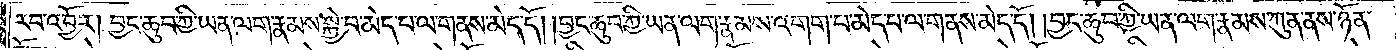རབ་འབྱོར་བྱང་ཆུབ་ཀྱི་ཡན་ལག་རྣམས་སྐྱེ་བ་མེད་པ་ལ་གནས་མེད་དོ། །བྱང་ཆུབ་ཀྱི་ཡན་ལག་རྣམས་འགག་པ་མེད་པ་ལ་གནས་མེད་དོ། །བྱང་ཆུབ་ཀྱི་ཡན་ལག་རྣམས་ཀུན་ནས་ཉོན་
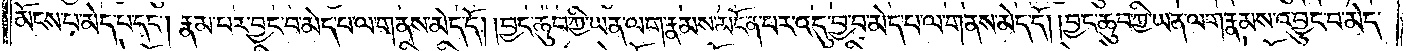མོངས་པ་མེད་པ་དང༌། རྣམ་པར་བྱང་བ་མེད་པ་ལ་གནས་མེད་དོ། །བྱང་ཆུབ་ཀྱི་ཡན་ལག་རྣམས་མངོན་པར་འདུ་བྱ་བ་མེད་པ་ལ་གནས་མེད་དོ། །བྱང་ཆུབ་ཀྱི་ཡན་ལག་རྣམས་འབྱུང་བ་མེད་
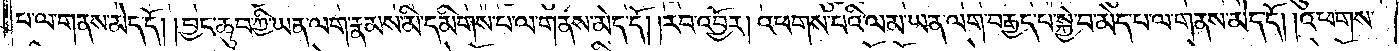པ་ལ་གནས་མེད་དོ། །བྱང་ཆུབ་ཀྱི་ཡན་ལག་རྣམས་མི་དམིགས་པ་ལ་གནས་མེད་དོ། །རབ་འབྱོར། འཕགས་པའི་ལམ་ཡན་ལག་བརྒྱད་པ་སྐྱེ་བ་མེད་པ་ལ་གནས་མེད་དོ། །འཕགས་
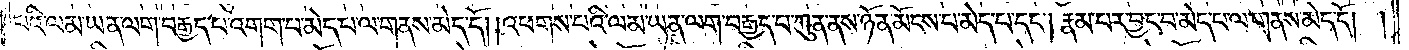པའི་ལམ་ཡན་ལག་བརྒྱད་པ་འགག་པ་མེད་པ་ལ་གནས་མེད་དོ། །འཕགས་པའི་ལམ་ཡན་ལག་བརྒྱད་པ་ཀུན་ནས་ཉོན་མོངས་པ་མེད་པ་དང༌། རྣམ་པར་བྱང་བ་མེད་པ་ལ་གནས་མེད་དོ། །
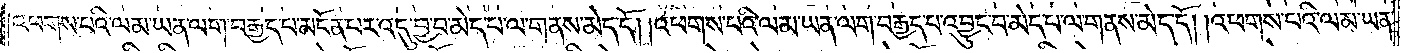འཕགས་པའི་ལམ་ཡན་ལག་བརྒྱད་པ་མངོན་པར་འདུ་བྱ་བ་མེད་པ་ལ་གནས་མེད་དོ། །འཕགས་པའི་ལམ་ཡན་ལག་བརྒྱད་པ་འབྱུང་བ་མེད་པ་ལ་གནས་མེད་དོ། །འཕགས་པའི་ལམ་ཡན་
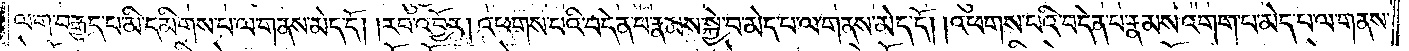ལག་བརྒྱད་པ་མི་དམིགས་པ་ལ་གནས་མེད་དོ། །རབ་འབྱོར། འཕགས་པའི་བདེན་པ་རྣམས་སྐྱེ་བ་མེད་པ་ལ་གནས་མེད་དོ། །འཕགས་པའི་བདེན་པ་རྣམས་འགག་བ་མེད་པ་ལ་གནས་
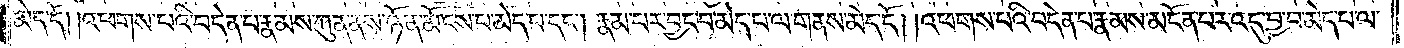མེད་དོ། །འཕགས་པའི་བདེན་པ་རྣམས་ཀུན་ནས་ཉོན་མོངས་པ་མེད་པ་དང༌། རྣམ་པར་བྱང་པ་མེད་པ་ལ་གནས་མེད་དོ། །འཕགས་པའི་བདེན་པ་རྣམས་མངོན་པར་འདུ་བྱ་བ་མེད་པ་ལ་
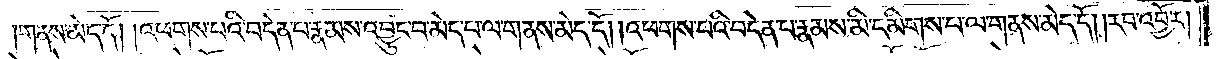གནས་མེད་དོ། །འཕགས་པའི་བདེན་པ་རྣམས་འབྱུང་བ་མེད་པ་ལ་གནས་མེད་དོ། །འཕགས་པའི་བདེན་པ་རྣམས་མི་དམིགས་པ་ལ་གནས་མེད་དོ། །རབ་འབྱོར།
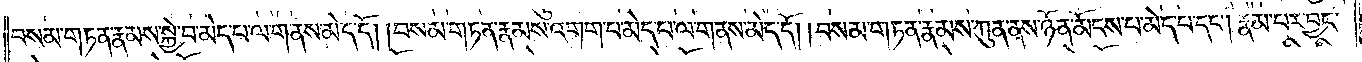བསམ་གཏན་རྣམས་སྐྱེ་བ་མེད་པ་ལ་གནས་མེད་དོ། །བསམ་གཏན་རྣམས་འགག་པ་མེད་པ་ལ་གནས་མེད་དོ། །བསམ་གཏན་རྣམས་ཀུན་ནས་ཉོན་མོངས་པ་མེད་པ་དང༌། རྣམ་པར་བྱང་
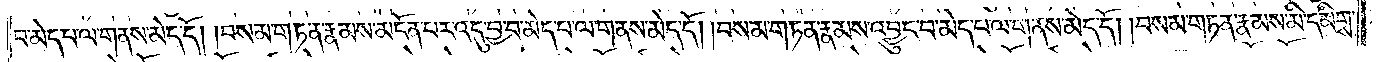བ་མེད་པ་ལ་གནས་མེད་དོ། །བསམ་གཏན་རྣམས་མངོན་པར་འདུ་བྱ་བ་མེད་པ་ལ་གནས་མེད་དོ། །བསམ་གཏན་རྣམས་འབྱུང་བ་མེད་པ་ལ་གནས་མེད་དོ། །བསམ་གཏན་རྣམས་མི་དམིགས་
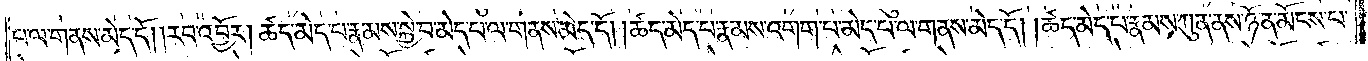པ་ལ་གནས་མེད་དོ། །རབ་འབྱོར། ཚད་མེད་པ་རྣམས་སྐྱེ་བ་མེད་པ་ལ་གནས་མེད་དོ། །ཚད་མེད་པ་རྣམས་འགག་པ་མེད་པ་ལ་གནས་མེད་དོ། །ཚད་མེད་པ་རྣམས་ཀུན་ནས་ཉོན་མོངས་པ་
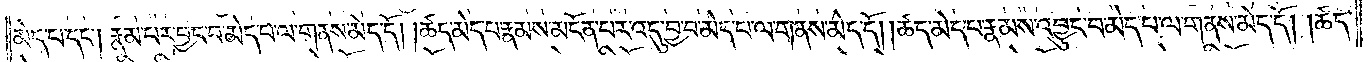མེད་པ་དང༌། རྣམ་པར་བྱང་བ་མེད་པ་ལ་གནས་མེད་དོ། །ཚད་མེད་པ་རྣམས་མངོན་པར་འདུ་བྱ་བ་མེད་པ་ལ་གནས་མེད་དོ། །ཚད་མེད་པ་རྣམས་འབྱུང་བ་མེད་པ་ལ་གནས་མེད་དོ། །ཚད་
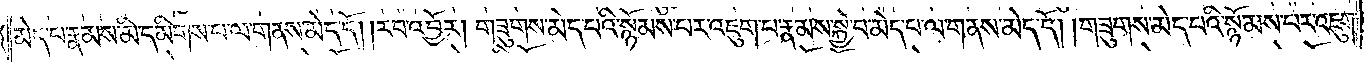མེད་པ་རྣམས་མི་དམིགས་པ་ལ་གནས་མེད་དོ། །རབ་འབྱོར། གཟུགས་མེད་པའི་སྙོམས་པར་འཇུག་པ་རྣམས་སྐྱེ་བ་མེད་པ་ལ་གནས་མེད་དོ། །གཟུགས་མེད་པའི་སྙོམས་པར་འཇུག་
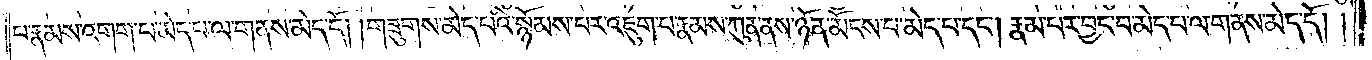པ་རྣམས་འགག་པ་མེད་པ་ལ་གནས་མེད་དོ། །གཟུགས་མེད་པའི་སྙོམས་པར་འཇུག་པ་རྣམས་ཀུན་ནས་ཉོན་མོངས་པ་མེད་པ་དང༌། རྣམ་པར་བྱང་བ་མེད་པ་ལ་གནས་མེད་དོ། །
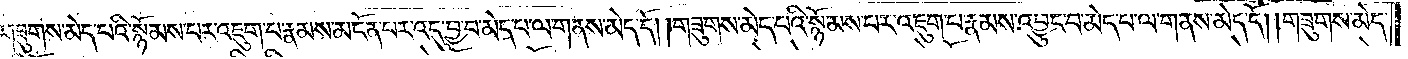གཟུགས་མེད་པའི་སྙོམས་པར་འཇུག་པ་རྣམས་མངོན་པར་འདུ་བྱ་བ་མེད་པ་ལ་གནས་མེད་དོ། །གཟུགས་མེད་པའི་སྙོམས་པར་འཇུག་པ་རྣམས་འབྱུང་བ་མེད་པ་ལ་གནས་མེད་དོ། །གཟུགས་མེད་
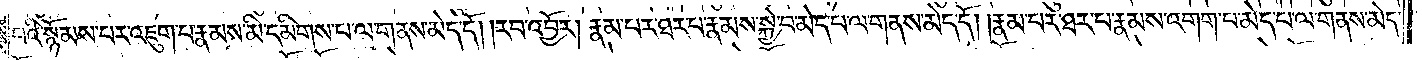པའི་སྙོམས་པར་འཇུག་པ་རྣམས་མི་དམིགས་པ་ལ་གནས་མེད་དོ། །རབ་འབྱོར། རྣམ་པར་ཐར་པ་རྣམས་སྐྱེ་བ་མེད་པ་ལ་གནས་མེད་དོ། །རྣམ་པར་ཐར་པ་རྣམས་འགག་པ་མེད་པ་ལ་གནས་མེད་
